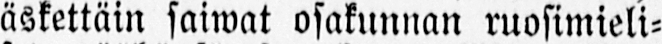äskettäin saiwat osakunnan ruosimieli-
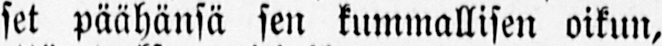set päähänsä sen kummallisen oikun,
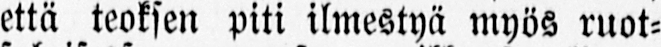että teoksen piti ilmestyä myös ruot-
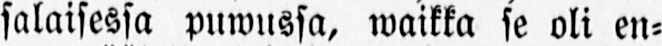salaisessa puwussa, waikka se oli en-
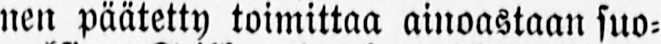nen päätetty toimittaa ainoastaan suo-
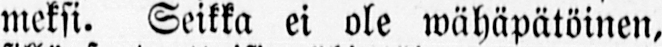meksi. Seikka ei ole wähäpätöinen,
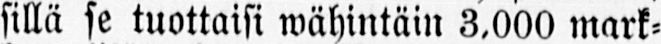sillä se tuottaisi wähintäin 3,000 mar-
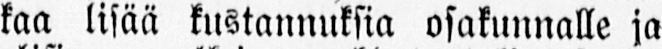kaa lisää kustannuksia osakunnalle ja
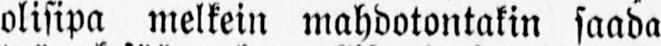olisipa melkein mahdotontakin saada
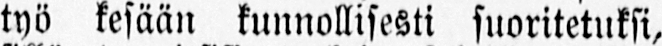työ kesään kunnollisesti suoritetuksi,
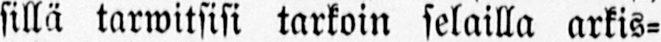sillä tarwitsisi tarkoin selailla arkis-
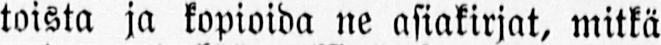toista ja kopioida ne asiakirjat, mitkä
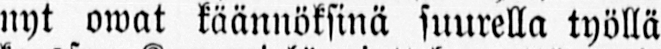nyt owat käännöksinä suurella työllä
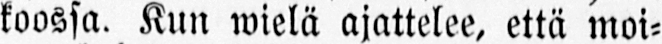koossa. Kun wielä ajattelee, että moi-
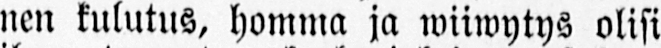nen kulutus, homma ja wiiwytys olisi
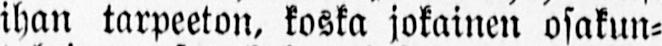ihan tarpeeton, koska jokainen osakun-
